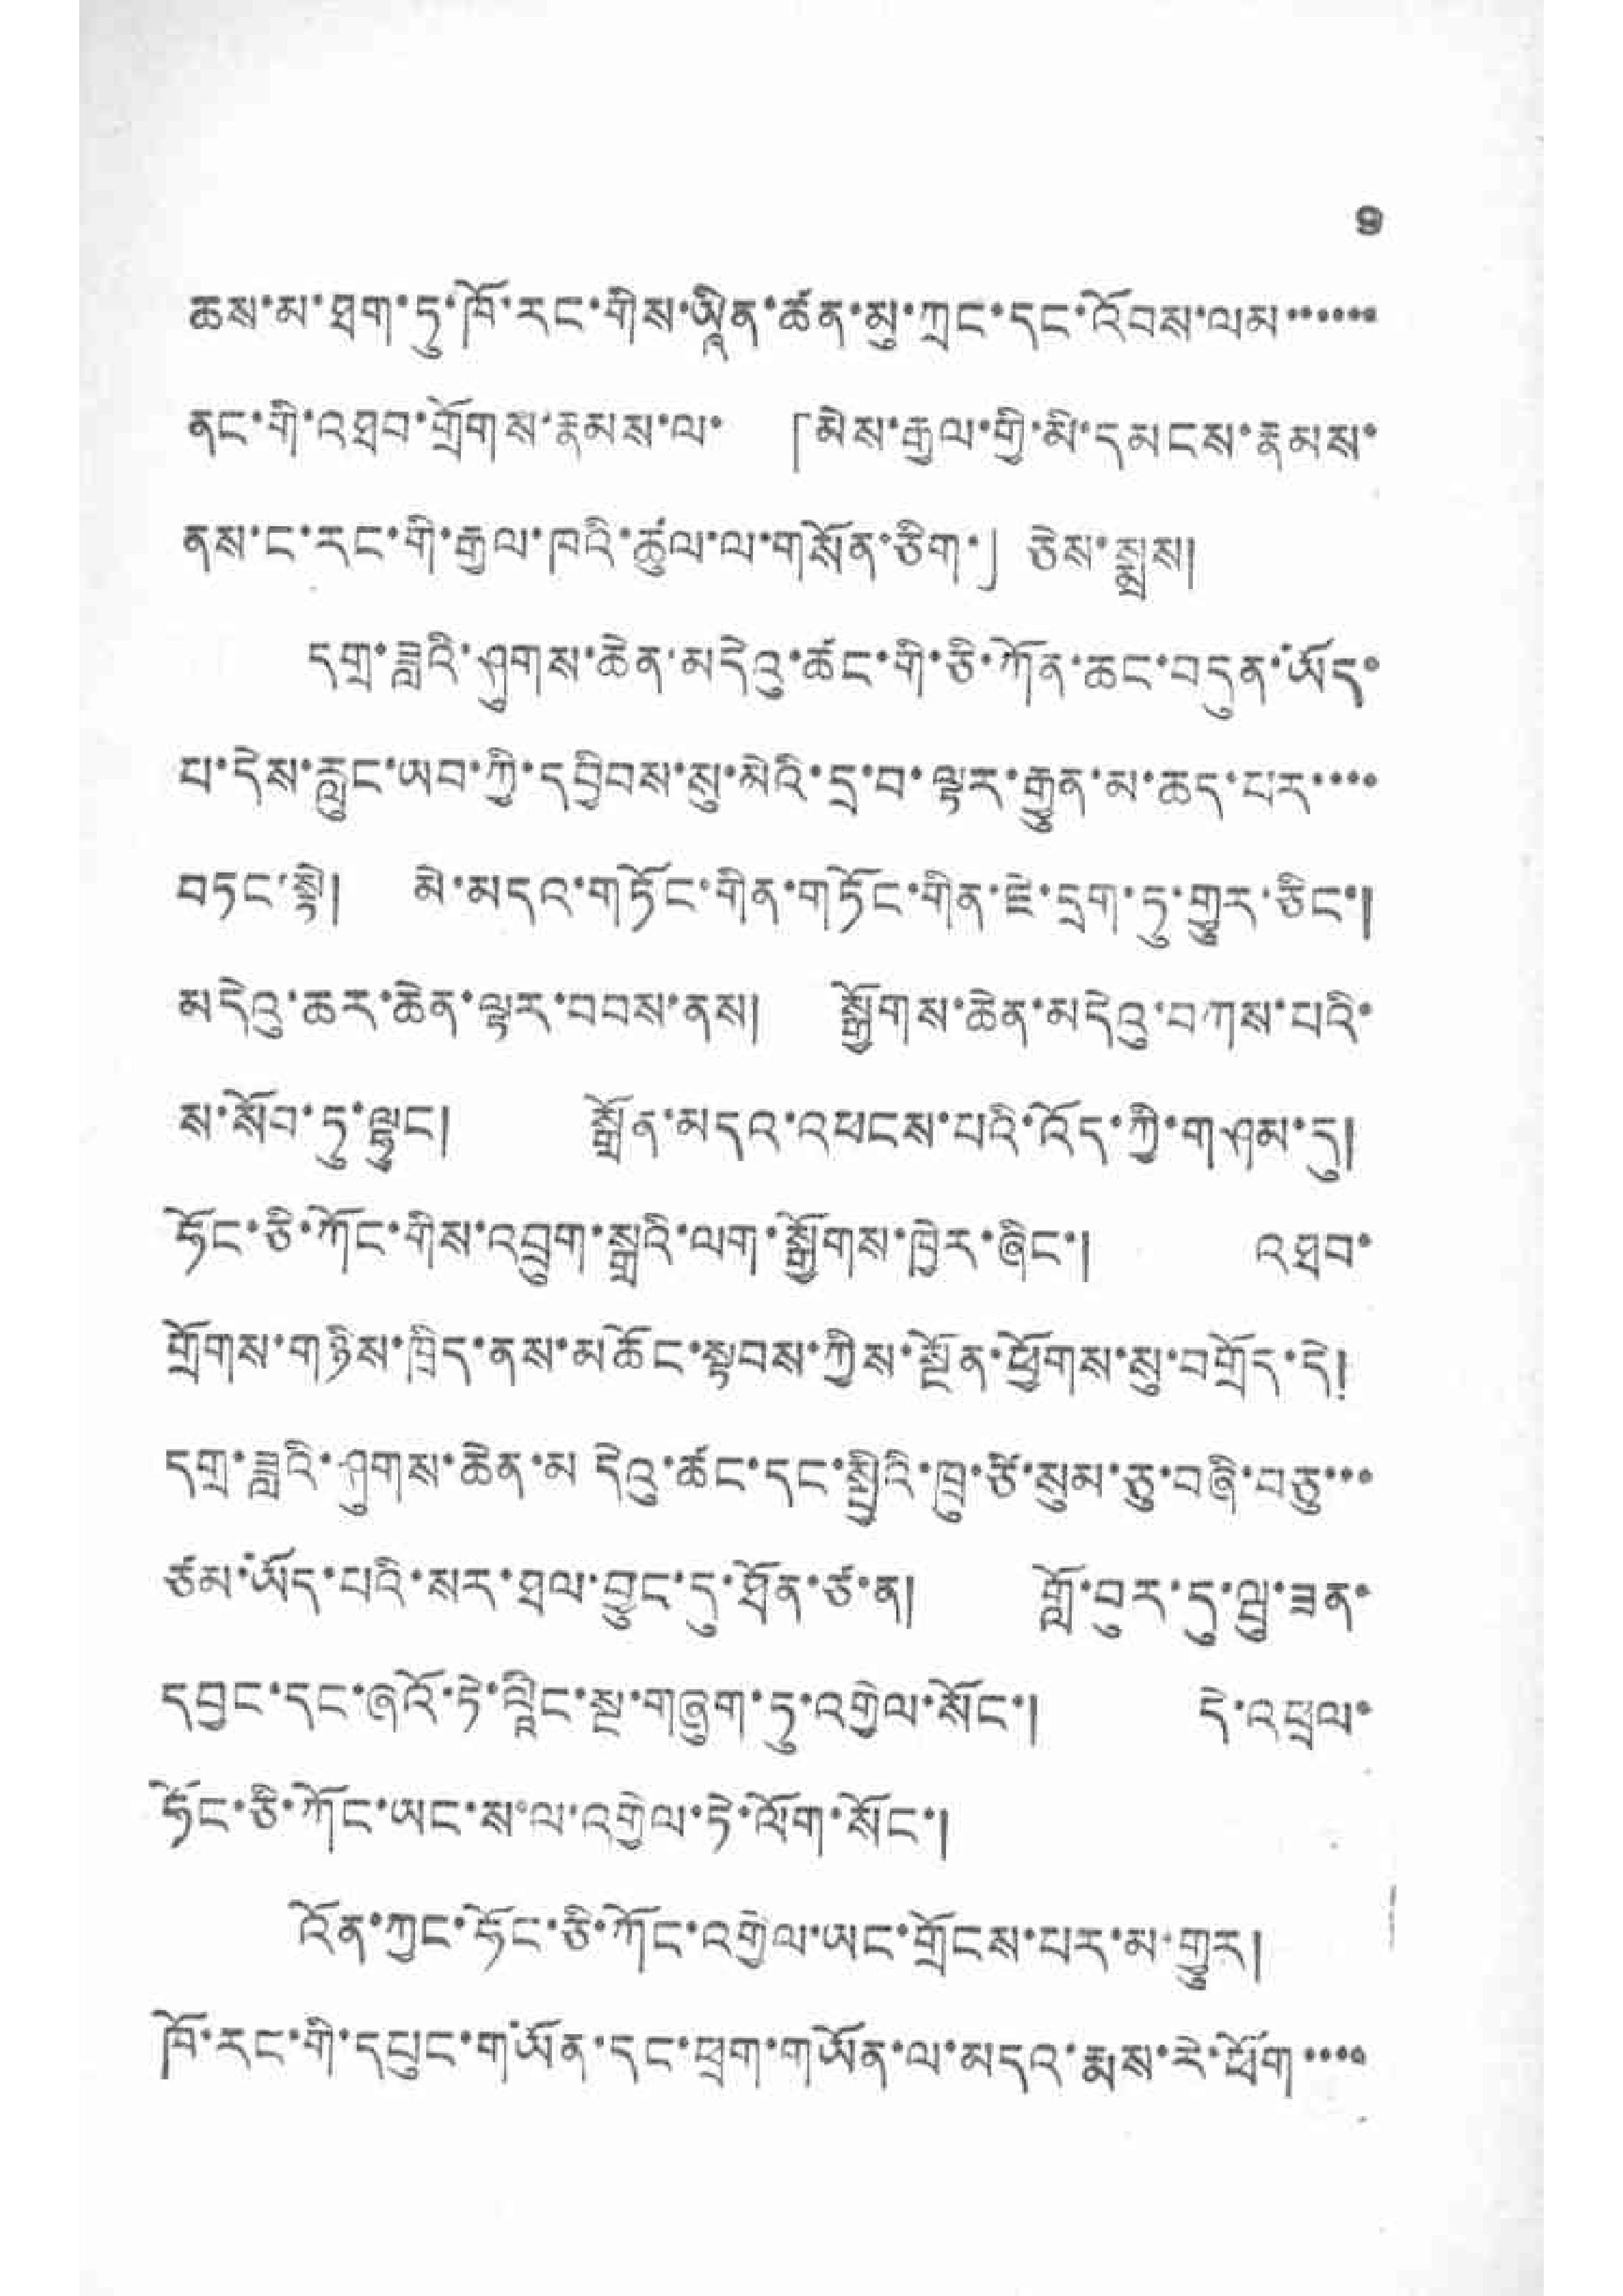9
ཆས་མ་ཐག་ཏུ་ཁོ་རང་གིས་ཡཱིན་ཚན་མུ་ཀྲང་དང་འོབས་ལམ་་་་་་་
ནང་གི་འཐབ་གྲོགས་རྣམས་ལ་ 「མེས་རྒྱལ་གྱི་མི་དམངས་རྣམས་
ནས་ང་རང་གི་རྒྱལ་ཁའི་ཚུལ་ལ་གསོན་ཅིག་」ཅེས་སྨྲས།
དགྲ་ཟླའི་ཤུགས་ཆེན་མདེའུ་ཚང་གི་ཅི་ཀོན་ཆང་བདུན་ཡོད་
པ་དེས་རླུང་ཡབ་ཀྱི་དབྱིབས་སུ་མེའི་དྲ་བ་ལྟར་རྒྱུན་མ་ཆད་པར་་་་
བཏང་སྟེ། མེ་མདའ་གཏོང་གིན་གཏོང་གིན་ཇེ་དྲག་ཏུ་གྱུར་ཅིང་།
མདེའུ་ཆར་ཆེན་ལྟར་བབས་ནས། སྒྱོགས་ཆེན་མདེའུ་བཀས་པའི་
ས་སོབ་ཏུ་ལྷུང་། སྒྲོན་མདའ་འཕངས་པའི་འོད་ཀྱི་གཤམ་དུ།
ཧོང་ཅི་ཀོང་གིས་འབྲུག་སྒྲའི་ལག་སྒྱོགས་ཁྱེར་ཞིང་། འཐབ་
གྲོགས་གཉིས་ཁྲིད་ནས་མཆོང་སྟབས་ཀྱིས་སྔོན་ཕྱོགས་སུ་བགྲོད་དེ།
དགྲ་ཟླའི་ཤུགས་ཆེན་མ་དེའུ་ཆང་དང་སྤྱིའི་ཁྲུ་ཙེ་སུམ་ཅུ་བཞི་བཅུ་་་་
ཙམ་ཡོད་པའི་སར་ཐལ་བྱུང་དུ་ཐོན་ཙ་ན། གློ་བུར་དུ་ཝུ་ཟན་
དབྱང་དང་ཞའོ་ཏེ་ལཱིང་སྔ་གཞུག་ཏུ་འགྱེལ་སོང་། དེ་འཕྲལ་
ཧོང་ཅི་ཀོང་ཡང་ས་ལ་འགྱེལ་ཏེ་ལོག་སོང་།
འོན་ཀྱང་ཧོང་ཅི་ཀོང་འགྱེལ་ཡང་གྲོངས་པར་མ་གྱུར།
ཁོ་རང་གི་དཔུང་གཡོན་དང་ཕྲག་གཡོན་ལ་མདའ་རྨས་རེ་ཕོག་་་་
